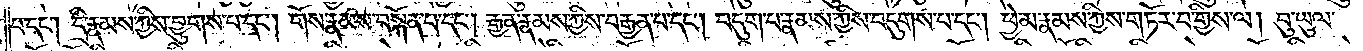པ་དང༌། དྲི་རྣམས་ཀྱིས་བྱུགས་པ་དང༌། གོས་རྣམས་བསྐོན་པ་དང༌། རྒྱན་རྣམས་ཀྱིས་བརྒྱན་པ་དང༌། བདུག་པ་རྣམས་ཀྱིས་བདུགས་པ་དང༌། ཕྱེ་མ་རྣམས་ཀྱིས་གཏོར་བ་གྱིས་ལ། བུ་ཡུལ་
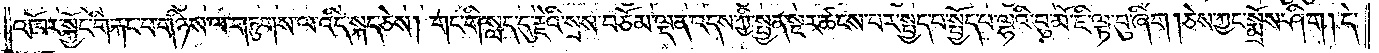འཁོར་སྐྱོང་གི་རྐང་པ་གཉིས་ལ་གཏུགས་ལ་འདི་སྐད་ཅེས། གང་གི་སླད་དུ་རྗེའི་སྲས་བཅོམ་ལྡན་འདས་ཀྱི་སྤྱན་སྔར་ཚངས་པར་སྤྱད་པ་སྤྱོད་པ་ལྷའི་བུ་མོ་ཇི་ལྟ་བུ་ཞིག །ཅེས་ཀྱང་སྨྲོས་ཤིག །དེ་
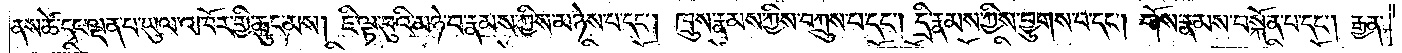ནས་ཚེ་དང་ལྡན་པ་ཡུལ་འཁོར་གྱི་ཆུང་མས། ཇི་ལྟ་བུའི་མཉེ་བ་རྣམས་ཀྱིས་མཉེས་པ་དང༌། ཁྲུས་རྣམས་ཀྱིས་བཀྲུས་པ་དང༌། དྲི་རྣམས་ཀྱིས་བྱུགས་པ་དང༌། གོས་རྣམས་བསྐོན་པ་དང༌། རྒྱན་
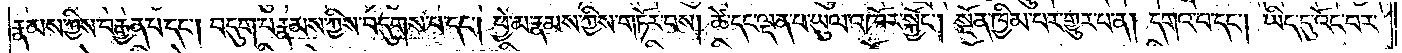རྣམས་ཀྱིས་བརྒྱན་པ་དང༌། བདུག་པ་རྣམས་ཀྱིས་བདུགས་པ་དང༌། ཕྱེ་མ་རྣམས་ཀྱིས་གཏོར་བས། ཚེ་དང་ལྡན་པ་ཡུལ་འཁོར་སྐྱོང༌། སྔོན་ཁྱིམ་པར་གྱུར་པ་ན། དགའ་བ་དང༌། ཡིད་དུ་འོང་བར་
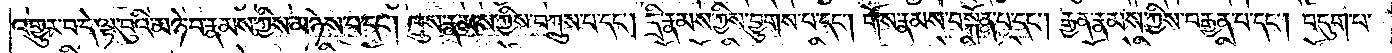འགྱུར་བ་དེ་ལྟ་བུའི་མཉེ་བ་རྣམས་ཀྱིས་མཉེས་པ་དང༌། ཁྲུས་རྣམས་ཀྱིས་བཀྲུས་པ་དང༌། དྲི་རྣམས་ཀྱིས་བྱུགས་པ་དང༌། གོས་རྣམས་བསྐོན་པ་དང༌། རྒྱན་རྣམས་ཀྱིས་བརྒྱན་པ་དང༌། བདུག་པ་
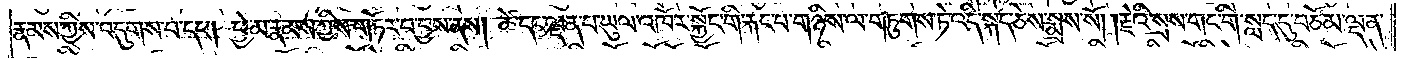རྣམས་ཀྱིས་བདུགས་པ་དང༌། ཕྱེ་མ་རྣམས་ཀྱིས་གཏོར་བ་བྱས་ནས། ཚེ་དང་ལྡན་པ་ཡུལ་འཁོར་སྐྱོང་གི་རྐང་པ་གཉིས་ལ་གཏུགས་ཏེ་འདི་སྐད་ཅེས་སྨྲས་སོ། །རྗེའི་སྲས་གང་གི་སླད་དུ་བཅོམ་ལྡན་
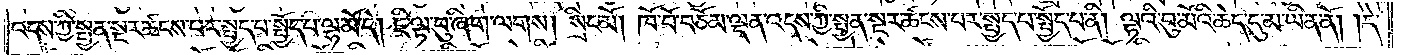འདས་ཀྱི་སྤྱན་སྔར་ཚངས་པར་སྤྱད་པ་སྤྱོད་པ་ལྷ་མོ་དེ། ཇི་ལྟ་བུ་ཞིག་ལགས། སྲིང་མོ། ཁོ་བོ་བཅོམ་ལྡན་འདས་ཀྱི་སྤྱན་སྔར་ཚངས་པར་སྤྱད་པ་སྤྱོད་པ་ནི། ལྷའི་བུ་མོའི་ཆེད་དུ་མ་ཡིན་ནོ། །དེ་
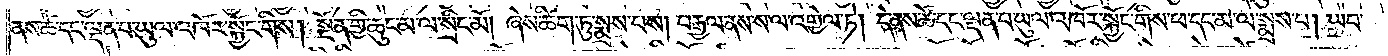ནས་ཚེ་དང་ལྡན་པ་ཡུལ་འཁོར་སྐྱོང་གིས། སྔོན་གྱི་ཆུང་མ་ལ་སྲིང་མོ། ཞེས་ཚིག་ཏུ་སྨྲས་པས། བརྒྱལ་ནས་ས་ལ་འགྱེལ་ཏེ། དེ་ནས་ཚེ་དང་ལྡན་པ་ཡུལ་འཁོར་སྐྱོང་གིས་ཕ་དང་མ་ལ་སྨྲས་པ། ཡབ་
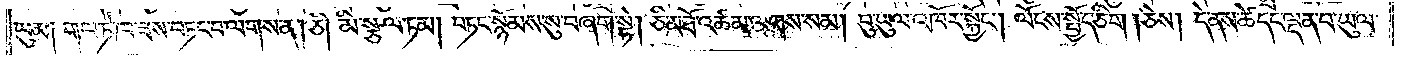ཡུམ། གལ་ཏེ་ཁ་ཟས་བཏང་བ་ལགས་ན། ཅི། མི་སྩལ་ཏམ། བཏང་སྙོམས་སུ་བཞག་སྟེ། ཅི་མཐོ་འཚམ་ལགས་སམ། བུ་ཡུལ་འཁོར་སྐྱོང༌། ལོངས་སྤྱོད་ཅིག །ཅེས། དེ་ནས་ཚེ་དང་ལྡན་པ་ཡུལ་
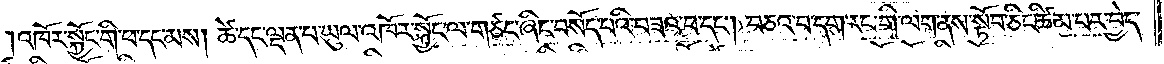འཁོར་སྐྱོང་གི་ཕ་དང་མས། ཚེ་དང་ལྡན་པ་ཡུལ་འཁོར་སྐྱོང་ལ་གཙང་ཞིང་བསོད་པའི་བཟའ་བ་དང༌། བཅའ་བ་དག་རང་གི་ལག་ནས་སྟོབ་ཅིང་ཚིམ་པར་བྱེད་
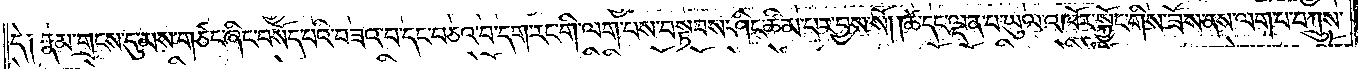དེ། རྣམ་གྲངས་དུ་མས་གཙང་ཞིང་བསོད་པའི་བཟའ་བ་དང་བཅའ་བ་དག་རང་གི་ལག་པས་བསྟབས་ཤིང་ཚིམ་པར་བྱས་སོ། །ཚེ་དང་ལྡན་པ་ཡུལ་འཁོར་སྐྱོང་གིས་ཟོས་ནས་ལག་པ་བཀྲུས་
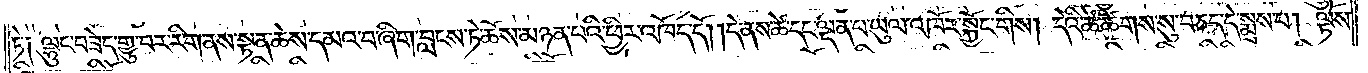ཏེ༑ ལྷུང་བཟེད་གྱུ་བར་རིག་ནས་སྟན་ཆེས་དམའ་བ་ཞིག་བླངས་ཏེ་ཆོས་མཉན་པའི་ཕྱིར་འཁོད་དོ། །དེ་ནས་ཚེ་དང་ལྡན་པ་ཡུལ་འཁོར་སྐྱོང་གིས། དེའི་ཚེ་ཚིགས་སུ་བཅད་དེ་སྨྲས་པ། ལྟོས་
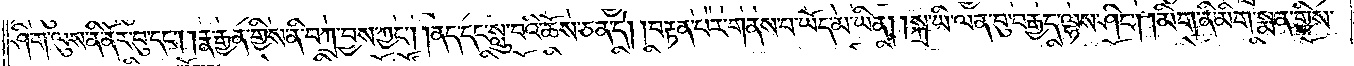ཤིག་ལུས་ནི་ནོར་བུ་དང༌། །རྣ་རྒྱན་གྱིས་ནི་བཀྲ་བྱས་ཀྱང༌། །ནད་དང་སླུ་བའི་ཆོས་ཅན་དེ། །བརྟན་པར་གནས་པ་ཡོད་མ་ཡིན། །སྐྲ་ཡི་ལན་བུ་བརྒྱད་ལྷས་ཤིང༌། །མིག་ནི་མིག་སྨན་གྱིས་
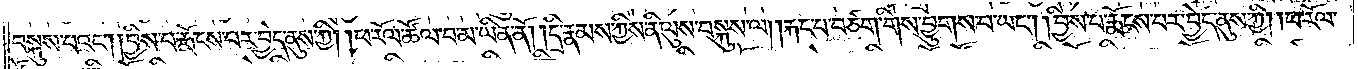བསྐུས་པའང༌། །བྱིས་པ་རྨོངས་པར་བྱེད་ནུས་ཀྱི། །ཕ་རོལ་ཚོལ་བ་མ་ཡིན་ནོ། །དྲི་རྣམས་ཀྱིས་ནི་ལུས་བསྐུས་ལ། །རྐང་པ་བཙག་གིས་བྱུགས་པ་ཡང༌། །བྱིས་པ་རྨོངས་པར་བྱེད་ནུས་ཀྱི། །ཕ་རོལ་
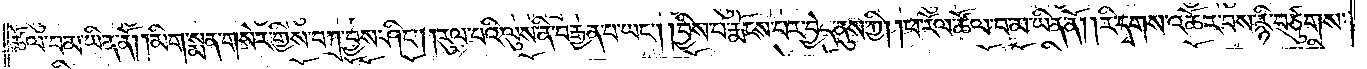ཚོལ་བ་མ་ཡིན་ནོ། །མིག་སྨན་གསེར་གྱིས་བཀྲ་བྱས་ཤིང༌། །རུལ་པའི་ལུས་ནི་བརྒྱན་པ་ཡང༌། །བྱིས་པ་རྨོངས་པར་བྱེད་ནུས་ཀྱི། །ཕ་རོལ་ཚོལ་བ་མ་ཡིན་ནོ། །རི་དྭགས་འཆོར་བས་རྙི་བཙུགས་
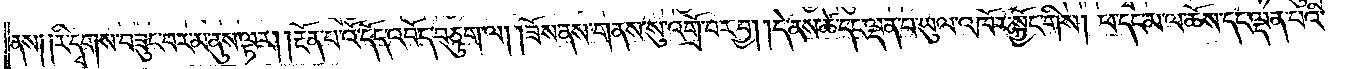ནས། །རི་དྭགས་བཟུང་བར་མ་ནུས་ལྟར། །རྔོན་པ་འོ་དོད་འབོད་བཅུག་ལ། །ཟོས་ནས་གནས་སུ་འགྲོ་བར་བྱ། །དེ་ནས་ཚེ་དང་ལྡན་པ་ཡུལ་འཁོར་སྐྱོང་གིས། ཕ་དང་མ་ལ་ཆོས་དང་ལྡན་པའི་
